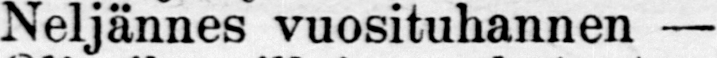Neljännes vuosituhannen —
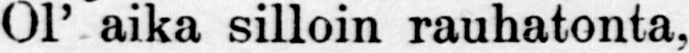Ol' aika silloin rauhatonta,
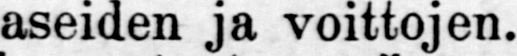Aik'aseiden voittojen.
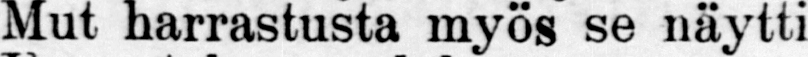Mut harrastusta myös se näytti
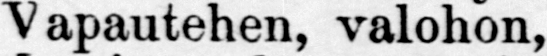Vapautehen, valohon,
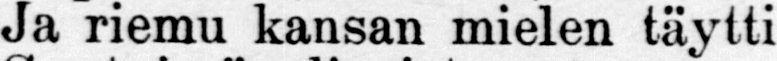ja riemu kansan mielen täytti
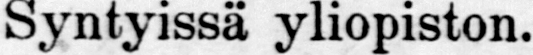Syntyissä yliopiston.
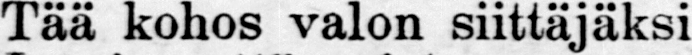Tää kohos valon siittäjäksi
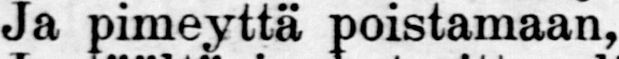ja pimeyttä poistamaan,
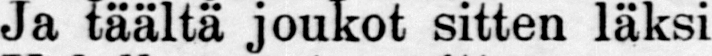ja täältä joukot sitten läksi
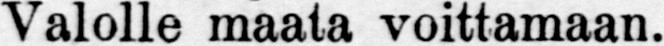Valolle maata voittamaan.
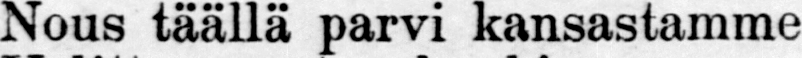Nous täällä parvi kansastamme
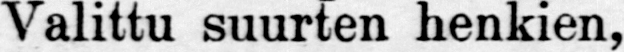Valittu suurten henkien,
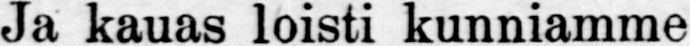ja kauas loisti kunniamme
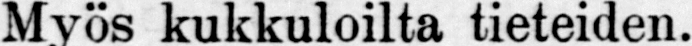Myös kukkuloilta tieteiden.
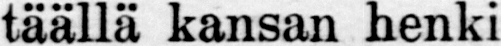Kehittyi täällä kansan henki
